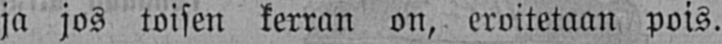ja jos toisen kerran on, eroitetaan pois.
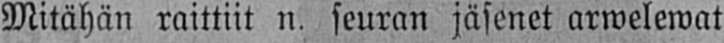Mitähän raittiit n. seuran jäsenet arwelewat
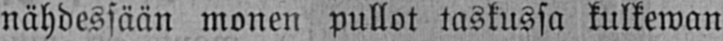nähdessään monen pullot taskussa kulkewan
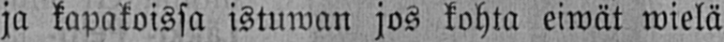ja kapakoissa istuwan jos kohta eiwät wielä
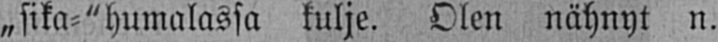„ sika-"humalassa kulje. Olen nähnyt n.
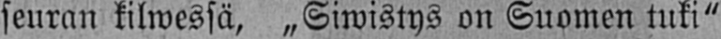seuran kilwessä, „Siwistys on Suomen tuki"
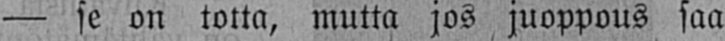— se on totta, mutta jos juoppous saa
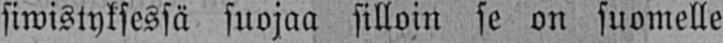siwistyksessä suojaa silloin se on suomelle
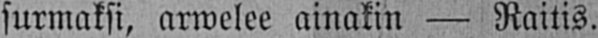surmaksi, arwelee ainakin — Raitis.
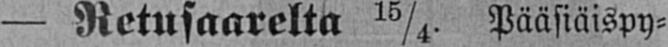— Retusaarelta 15/4. Pääsiäispy-
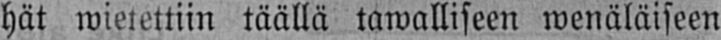hät wietettiin täällä tawalliseen wenäläiseen
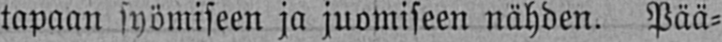tapaan syömiseen ja juomiseen nähden. Pää-
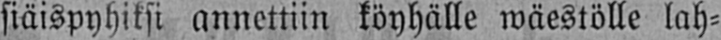siäispyhiksi annettiin köyhälle wäestölle lah-
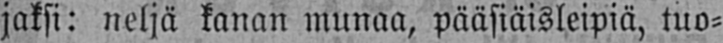jaksi: neljä kanan munaa, pääsiäisleipiä, tuo-
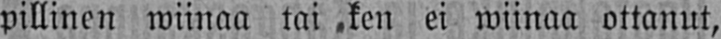pillinen wiinaa tai ken ei wiinaa ottanut,
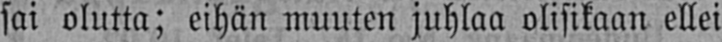sai olutta; eihän muuten juhlaa olisikaan ellei
